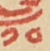༡༠
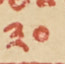༣༠
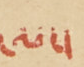ལ་།
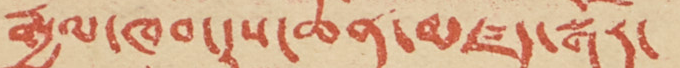རྒྱལ་ཁབ་དུས་ཆེན་མཛད་སྒོར་
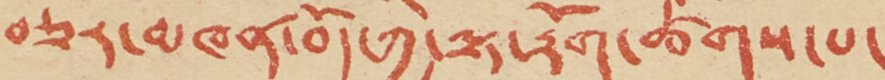བཅར་མཁན་བོད་ཀྱི་ལྟ་རྟོག་ཚོགས་པ་
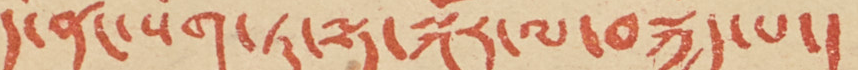དེ་ནང་སོག་ཏུ་ལྟ་སྐོར་ལ་བསྐྱོད་པ།
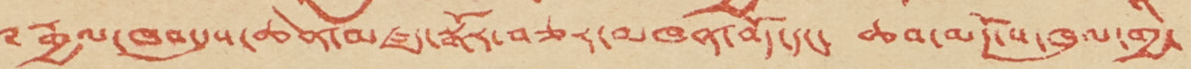༸རྒྱལ་ཁབ་དུས་ཆེན་མཛད་སྒོར་བཅར་མཁན་བོད་དང་ ཆབ་མདོ་ས་ཁུལ་གྱི་
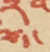ལྟ་
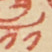༡༡
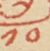༡༠
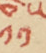༡༡
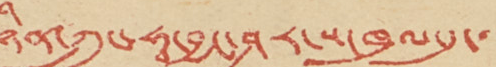ཉིན་ཀྲུང་ཧྭ་བྱང་ཤར་ས་ཁུལ་དུ་་
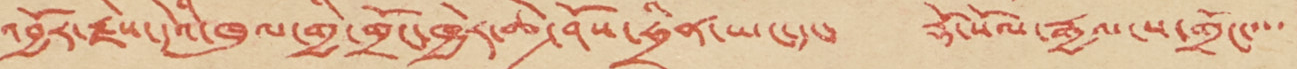འབྱོར་རྗེས་དེའི་ཁུལ་གྱི་གྲོང་ཁྱེར་ཆེ་ཤོས་ཧྲིན་ཡང་དང་ རྡོ་སོལ་རྒྱལ་ས་གྲོང་་་་
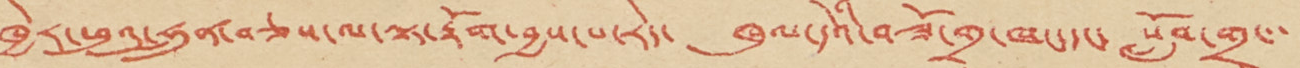ཁྱེར་ཕུའུ་ཧྲུན་བཅས་ལ་ལྟ་རྟོག་བྱས་པ་རེད་ ཁུལ་དེའི་བཟོ་གྲྭ་ཁང་དང་ སློབ་གྲྭ་་་
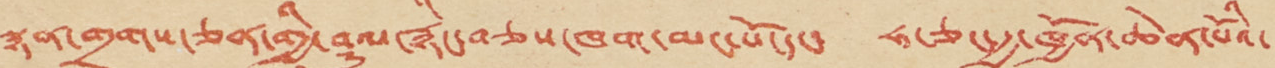སྙན་གྲགས་ཅན་གྱི་ཤུལ་རྙིང་བཅས་ཁག་མང་པོ་དང་ ཧ་ཅང་རྒྱ་ཁྱོན་ཆེན་པོའི་
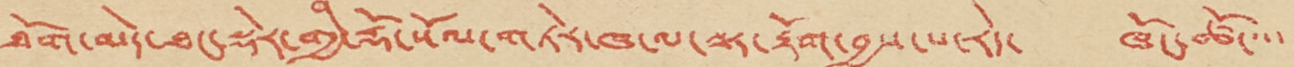ཐོག་མདེ་ཐང་སྡེར་གྱི་རྡོ་སོལ་གཏེར་ཁ་ལ་ལྟ་རྟོག་བྱས་པ་རེད་ ཁོང་ཚོ་་་་
